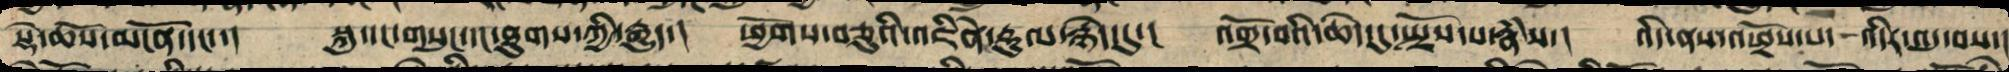སྡེ་ཆོས་མངོན་དང་་། སྐུ་དང་གསུང་དང་ཐུགས་ཀྱི་རྒྱུད་། ཕྱོགས་བཅུའི་འཇིཻན་རྡུལ་སྙེད་དུ་། འགྲོ་བའི་ཆེད་དུ་སྤྲོས་པ་རྣཾས། འདི་ནས་འཕྲོས་ནས་འདིར་འདུ་བས་།
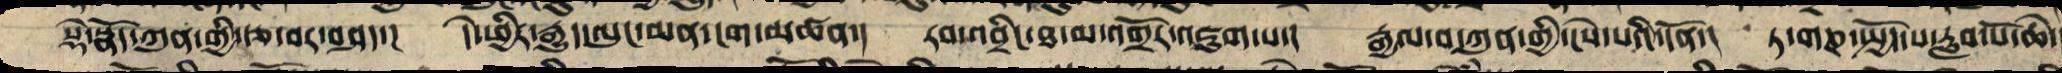སྡེ་སྣོད་ཀུན་གྱི་རྩ་བར་བཤད་། དེ་ཕྱིར་རྒྱུད་ལུང་མན་ངག་མཚན་། རབ་འབྲིང་ཐ་མ་འགྲོར་འཇུག་པ་། རྒྱལ་བ་ཀུན་གྱི་ངེས་པའི་དོན་། ཏན་གཎ་སྤྱོད་པ་རླབ་པོ་ཆེ་
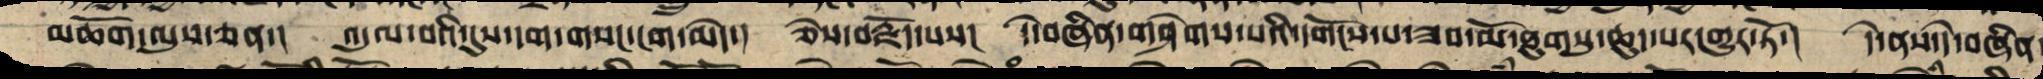མཆོག་ལུས་ཅན་། འདུལ་བའི་དུས་དག་གསང་སྔགས་མེད་། ཅེས་བརྗོད་པས་། དེ་བཞིན་གཤེགས་པའི་དགོངས་པ་ཟབ་མོ་ཐུགས་སུ་ཆུད་པར་གྱུར་ཏོ་། དེ་ནས་དེ་བཞིན
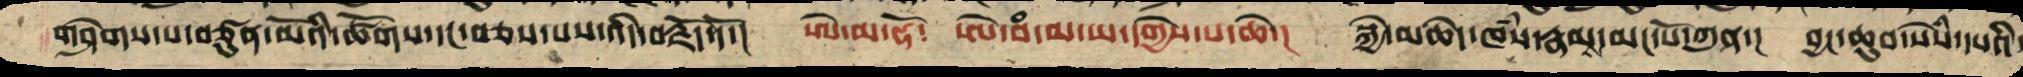གཤེགས་པ་བཙུན་མོའི་ཚོགས་དང་བཅས་པས་འདི་བརྗོད་དོ་། ཨེ་མ་ཧོ་ ཨེ་བཾ་མ་ཡ་དགྱེས་པ་ཆེ་། སྐྱེ་མཆེད་ཁཾས་རྣམས་མང་པོ་ཀུན་། བྱང་ཆུབ་སེཾས་དཔའི
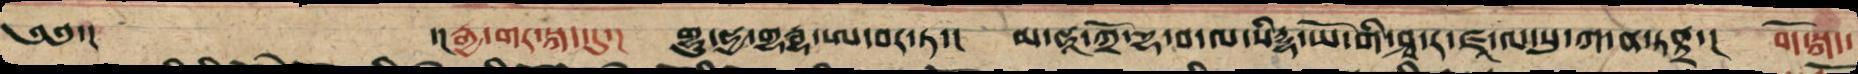༄༅་། ་།རྒྱ་གར་སྐད་དུ་། གུ་ཧྱ་གརྦྷ་ཨ་བར་ཏ་། མ་ཧཱ་ཀྲོ་དྷ་བ་ལ་སིདྡྷ་ཡོ་གི་ཤྭ་ར་་ཛཱ་ལ་ཏནྟྲ་། བོད་སྐད་
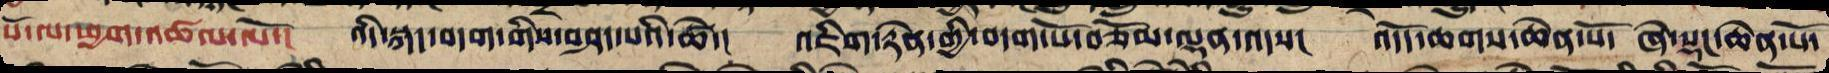པོ་ལ་ཕྱག་འཚལ་ལོ་། འདི་སྐད་བདག་གིས་བཤད་པའི་ཚེ་། འཇིག་རྟེན་གྱི་བདག་པོ་བཅོམ་ལྡན་འདས། འདོད་ཆགས་ཆེན་པོ་ཞེ་སྡང་ཆེན་པོ།
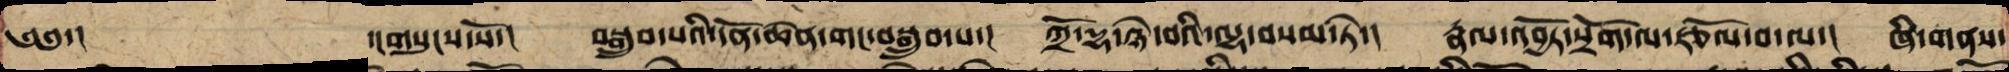༄༅་།  ་།གསུངས་སོ་། བསྒྲུབ་པའི་དོན་ཆེན་གང་བསྒྲུབ་པ་། ཀྲོ་དྷ་ཉེ་བའི་ལྷ་བསམ་ཏེ་། རྣལ་འབྱོར་སྲོག་ལ་རྩོལ་བ་ལ་། ཞི་གནས་
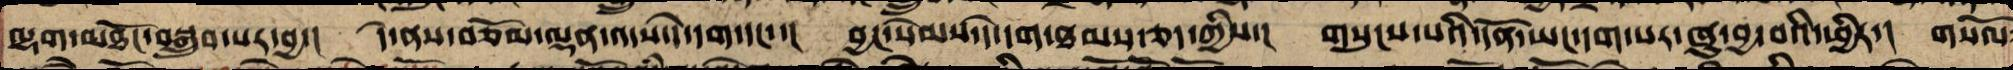ལྷག་མཐོང་བསྒྲུབ་པར་བྱ་། དེ་ནས་བཅོམ་ལྡན་འདས་དེ་དག་དང་་། བྱང་སེམས་དེ་དག་ཐམས་ཅད་ཀྱིས་། གསུངས་པའི་དོན་ཡང་དག་པར་ཞུ་བྱ་བའི་ཕྱིར་། གསོལ
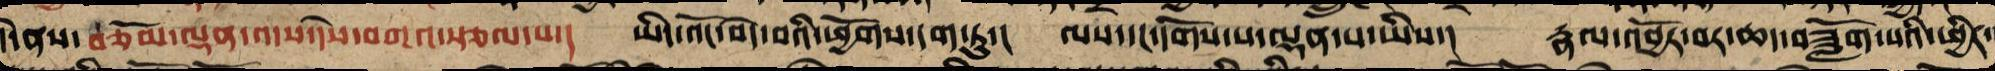དེ་ནས་བཅོམ་ལྡན་འདས་དེས་བཀའ་སྩལ་པ་། ཡིད་འོང་བདེ་བའི་ཕྱོགས་དག་ཏུ་། ལས་དང་དགོས་པ་ལྡན་པ་ཡིས་། རྣལ་འབྱོར་བར་ཆད་བཟློག་པའི་ཕྱིར་
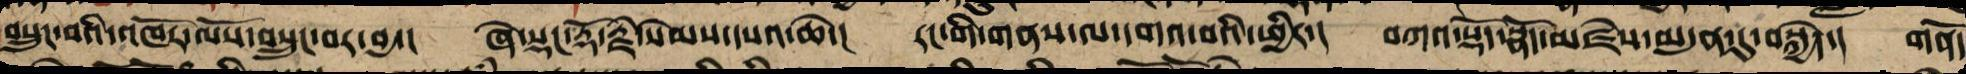བསྲུང་བའི་འཁོར་ལོས་བསྲུང་བར་བྱ་། ཞེ་སྡང་རྡོ་རྗེ་སེམས་དཔའ་ཆེ། རང་གི་གནས་ལ་དགའ་བའི་ཕྱིར་། བཀའ་སྡོད་སྣོད་མཛེས་མདུན་དུ་བསྐྱེད་། གནོད
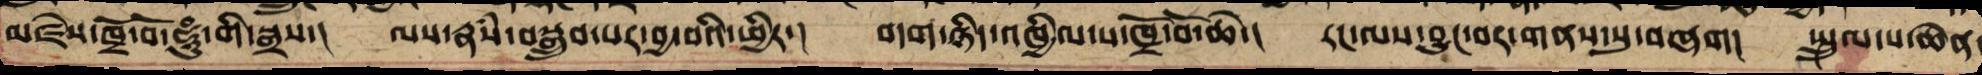མཛེས་ཁྲོ་བོའི་ཧཱུྃ་གི་སྒྲས་། ལས་རྣཾས་བསྒྲུབ་པར་བྱ་བའི་ཕྱིར་། བདག་ཉིད་འཁྱིལ་པ་ཁྲོ་བོ་ཆེ་། རང་ལས་བྱུང་བ་གནས་སུ་བཞག། སྤྲུལ་པ་ཆེན་
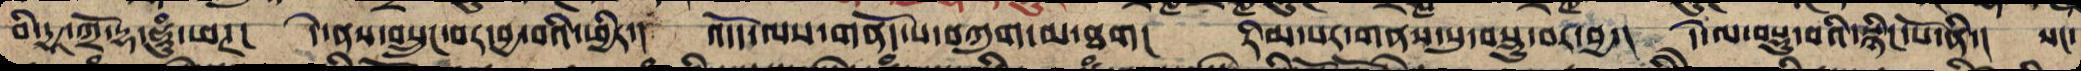བི་དྱར་ཀྲོ་དྷ་ཧཱུྃ་ཕཊ། དེ་ནས་བསྲུང་བར་བྱ་བའི་ཕྱིར་། འདོད་ལས་གནོད་པ་བཀུག་མ་ཐག། རིམ་པར་གནས་སུ་བསྡུ་བར་བྱ་། དེ་ལ་བསྡུ་བའི་སྙིང་པོ་ནི་། སང་
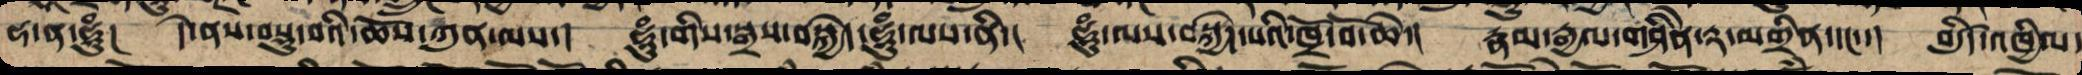ཧ་ན་ཧཱུྃ། དེ་ནས་བསྡུ་པའི་ཆོས་ཀུན་ལས་། ཧཱུྃ་གི་སྒྲས་བསྐྱེད་ཧཱུྃ་ལས་ནི་། ཧཱུྃ་ལས་བསྐྱེད་པའི་ཁྲོ་བོ་ཆེ་། རྣམ་རྒྱལ་གཤིནེ་རྟ་མགྲིན་དང་་། བདུདརྩི་་འཁྱིལ
